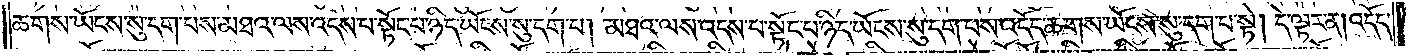ཆགས་ཡོངས་སུ་དག་པས་མཐའ་ལས་འདས་པ་སྟོང་པ་ཉིད་ཡོངས་སུ་དག་པ། མཐའ་ལས་འདས་པ་སྟོང་པ་ཉིད་ཡོངས་སུ་དག་པས་འདོད་ཆགས་ཡོངས་སུ་དག་པ་སྟེ། དེ་ལྟར་ན། འདོད་
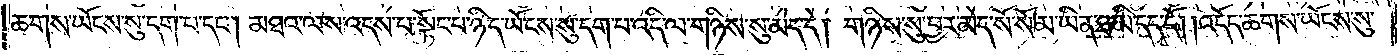ཆགས་ཡོངས་སུ་དག་པ་དང༌། མཐའ་ལས་འདས་པ་སྟོང་པ་ཉིད་ཡོངས་སུ་དག་པ་འདི་ལ་གཉིས་སུ་མེད་དེ། གཉིས་སུ་བྱར་མེད་སོ་སོ་མ་ཡིན་ཐ་མི་དད་དོ། །འདོད་ཆགས་ཡོངས་སུ་
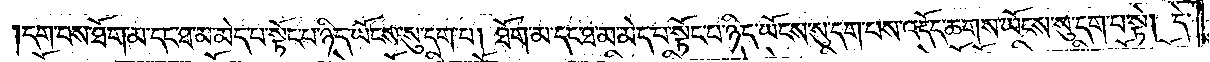དག་པས་ཐོག་མ་དང་ཐ་མ་མེད་པ་སྟོང་པ་ཉིད་ཡོངས་སུ་དག་པ། ཐོག་མ་དང་ཐ་མ་མེད་པ་སྟོང་པ་ཉིད་ཡོངས་སུ་དག་པས་འདོད་ཆགས་ཡོངས་སུ་དག་པ་སྟེ། དེ་
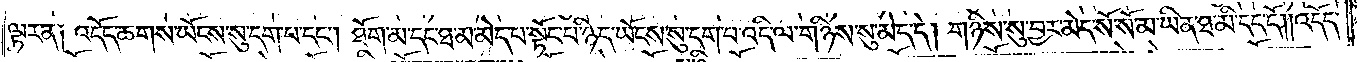ལྟར་ན༑ འདོད་ཆགས་ཡོངས་སུ་དག་པ་དང༌། ཐོག་མ་དང་ཐ་མ་མེད་པ་སྟོང་པ་ཉིད་ཡོངས་སུ་དག་པ་འདི་ལ་གཉིས་སུ་མེད་དེ། གཉིས་སུ་བྱར་མེད་སོ་སོ་མ་ཡིན་ཐ་མི་དད་དོ། །འདོད་
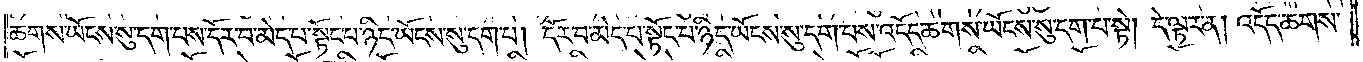ཆགས་ཡོངས་སུ་དག་པས་དོར་བ་མེད་པ་སྟོང་པ་ཉིད་ཡོངས་སུ་དག་པ། དོར་བ་མེད་པ་སྟོང་པ་ཉིད་ཡོངས་སུ་དག་པས་འདོད་ཆགས་ཡོངས་སུ་དག་པ་སྟེ། དེ་ལྟར་ན། འདོད་ཆགས་
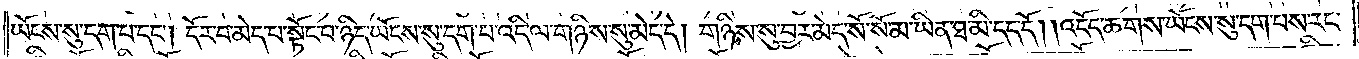ཡོངས་སུ་དག་པ་དང༌། དོར་བ་མེད་པ་སྟོང་པ་ཉིད་ཡོངས་སུ་དག་པ་འདི་ལ་གཉིས་སུ་མེད་དེ། གཉིས་སུ་བྱར་མེད་སོ་སོ་མ་ཡིན་ཐ་མི་དད་དོ། །འདོད་ཆགས་ཡོངས་སུ་དག་པས་རང་
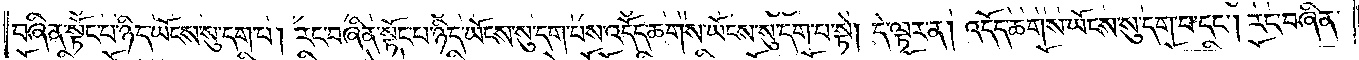བཞིན་སྟོང་པ་ཉིད་ཡོངས་སུ་དག་པ། རང་བཞིན་སྟོང་པ་ཉིད་ཡོངས་སུ་དག་པས་འདོད་ཆགས་ཡོངས་སུ་དག་པ་སྟེ། དེ་ལྟར་ན། འདོད་ཆགས་ཡོངས་སུ་དག་པ་དང༌། རང་བཞིན་
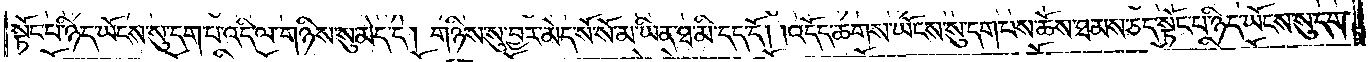སྟོང་པ་ཉིད་ཡོངས་སུ་དག་པ་འདི་ལ་གཉིས་སུ་མེད་དེ། གཉིས་སུ་བྱར་མེད་སོ་སོ་མ་ཡིན་ཐ་མི་དད་དོ། །འདོད་ཆགས་ཡོངས་སུ་དག་པས་ཆོས་ཐམས་ཅད་སྟོང་པ་ཉིད་ཡོངས་སུ་དག་
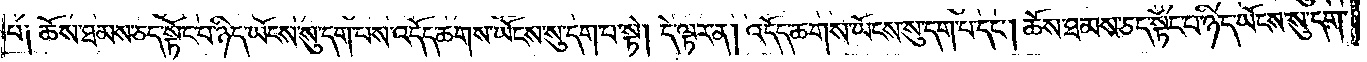པ༑ ཆོས་ཐམས་ཅད་སྟོང་པ་ཉིད་ཡོངས་སུ་དག་པས་འདོད་ཆགས་ཡོངས་སུ་དག་པ་སྟེ། དེ་ལྟར་ན། འདོད་ཆགས་ཡོངས་སུ་དག་པ་དང༌། ཆོས་ཐམས་ཅད་སྟོང་པ་ཉིད་ཡོངས་སུ་དག་
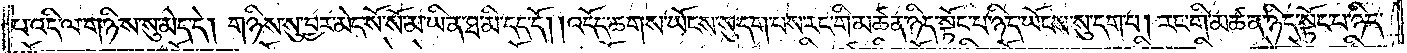པ་འདི་ལ་གཉིས་སུ་མེད་དེ། གཉིས་སུ་བྱར་མེད་སོ་སོ་མ་ཡིན་ཐ་མི་དད་དོ། །འདོད་ཆགས་ཡོངས་སུ་དག་པས་རང་གི་མཚན་ཉིད་སྟོང་པ་ཉིད་ཡོངས་སུ་དག་པ། རང་གི་མཚན་ཉིད་སྟོང་པ་ཉིད་
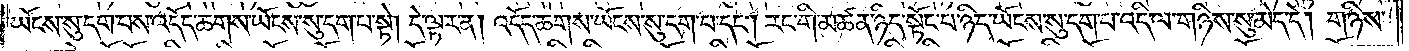ཡོངས་སུ་དག་པས་འདོད་ཆགས་ཡོངས་སུ་དག་པ་སྟེ། དེ་ལྟར་ན། འདོད་ཆགས་ཡོངས་སུ་དག་པ་དང༌། རང་གི་མཚན་ཉིད་སྟོང་པ་ཉིད་ཡོངས་སུ་དག་པ་འདི་ལ་གཉིས་སུ་མེད་དེ། གཉིས་
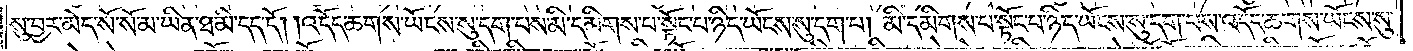སུ་བྱར་མེད་སོ་སོ་མ་ཡིན་ཐ་མི་དད་དོ། །འདོད་ཆགས་ཡོངས་སུ་དག་པས་མི་དམིགས་པ་སྟོང་པ་ཉིད་ཡོངས་སུ་དག་པ། མི་དམིགས་པ་སྟོང་པ་ཉིད་ཡོངས་སུ་དག་པས་འདོད་ཆགས་ཡོངས་སུ་
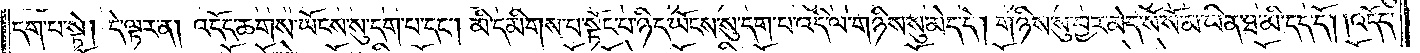དག་པ་སྟེ། དེ་ལྟར་ན། འདོད་ཆགས་ཡོངས་སུ་དག་པ་དང༌། མི་དམིགས་པ་སྟོང་པ་ཉིད་ཡོངས་སུ་དག་པ་འདི་ལ་གཉིས་སུ་མེད་དེ། གཉིས་སུ་བྱར་མེད་སོ་སོ་མ་ཡིན་ཐ་མི་དད་དོ། །འདོད་
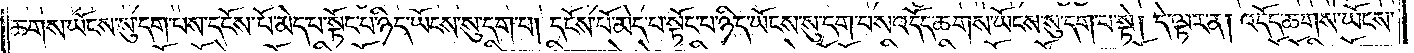ཆགས་ཡོངས་སུ་དག་པས་དངོས་པོ་མེད་པ་སྟོང་པ་ཉིད་ཡོངས་སུ་དག་པ། དངོས་པོ་མེད་པ་སྟོང་པ་ཉིད་ཡོངས་སུ་དག་པས་འདོད་ཆགས་ཡོངས་སུ་དག་པ་སྟེ། དེ་ལྟར་ན། འདོད་ཆགས་ཡོངས་
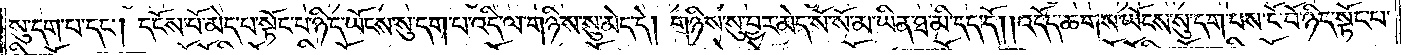སུ་དག་པ་དང༌། དངོས་པོ་མེད་པ་སྟོང་པ་ཉིད་ཡོངས་སུ་དག་པ་འདི་ལ་གཉིས་སུ་མེད་དེ། གཉིས་སུ་བྱར་མེད་སོ་སོ་མ་ཡིན་ཐ་མི་དད་དོ། །འདོད་ཆགས་ཡོངས་སུ་དག་པས་ངོ་བོ་ཉིད་སྟོང་པ་
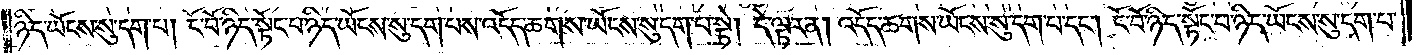ཉིད་ཡོངས་སུ་དག་པ། ངོ་བོ་ཉིད་སྟོང་པ་ཉིད་ཡོངས་སུ་དག་པས་འདོད་ཆགས་ཡོངས་སུ་དག་པ་སྟེ། དེ་ལྟར་ན། འདོད་ཆགས་ཡོངས་སུ་དག་པ་དང༌། ངོ་བོ་ཉིད་སྟོང་པ་ཉིད་ཡོངས་སུ་དག་པ་
